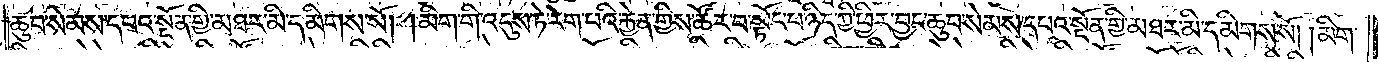ཆུབ་སེམས་དཔའ་སྔོན་གྱི་མཐར་མི་དམིགས་སོ། །མིག་གི་འདུས་ཏེ་རེག་པའི་རྐྱེན་གྱིས་ཚོར་བ་སྟོང་པ་ཉིད་ཀྱི་ཕྱིར་བྱང་ཆུབ་སེམས་དཔའ་སྔོན་གྱི་མཐར་མི་དམིགས་སོ། མིག་
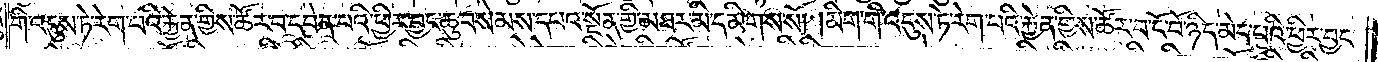གི་འདུས་ཏེ་རེག་པའི་རྐྱེན་གྱིས་ཚོར་བ་དབེན་པའི་ཕྱིར་བྱང་ཆུབ་སེམས་དཔའ་སྔོན་གྱི་མཐར་མི་དམིགས་སོ། །མིག་གི་འདུས་ཏེ་རེག་པའི་རྐྱེན་གྱིས་ཚོར་བ་ངོ་བོ་ཉིད་མེད་པའི་ཕྱིར་བྱང་
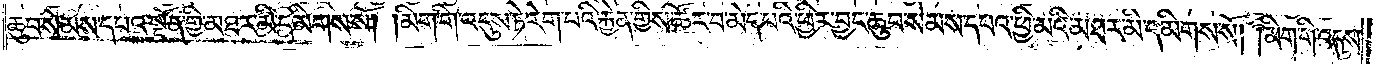ཆུབ་སེམས་དཔའ་སྔོན་གྱི་མཐར་མི་དམིགས་སོ། །མིག་གི་འདུས་ཏེ་རེག་པའི་རྐྱེན་གྱིས་ཚོར་བ་མེད་པའི་ཕྱིར་བྱང་ཆུབ་སེམས་དཔའ་ཕྱི་མའི་མཐར་མི་དམིགས་སོ། །མིག་གི་འདུས་
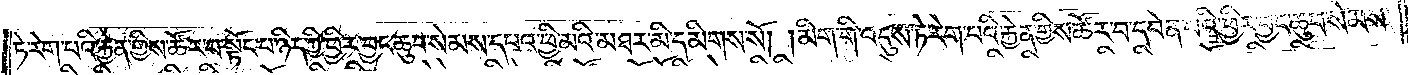ཏེ་རེག་པའི་རྐྱེན་གྱིས་ཚོར་བ་སྟོང་པ་ཉིད་ཀྱི་ཕྱིར་བྱང་ཆུབ་སེམས་དཔའ་ཕྱི་མའི་མཐར་མི་དམིགས་སོ། །མིག་གི་འདུས་ཏེ་རེག་པའི་རྐྱེན་གྱིས་ཚོར་བ་དབེན་པའི་ཕྱིར་བྱང་ཆུབ་སེམས་
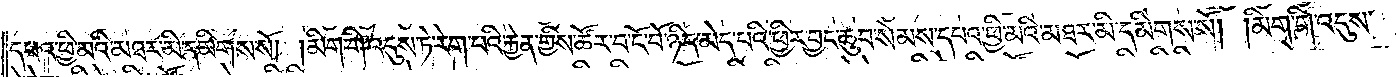དཔའ་ཕྱི་མའི་མཐར་མི་དམིགས་སོ། །མིག་གི་འདུས་ཏེ་རེག་པའི་རྐྱེན་གྱིས་ཚོར་བ་ངོ་བོ་ཉིད་མེད་པའི་ཕྱིར་བྱང་ཆུབ་སེམས་དཔའ་ཕྱི་མའི་མཐར་མི་དམིགས་སོ། །མིག་གི་འདུས་
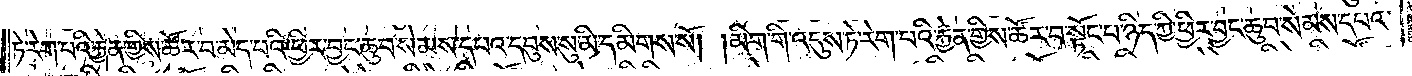ཏེ་རེག་པའི་རྐྱེན་གྱིས་ཚོར་བ་མེད་པའི་ཕྱིར་བྱང་ཆུབ་སེམས་དཔའ་དབུས་སུ་མི་དམིགས་སོ། །མིག་གི་འདུས་ཏེ་རེག་པའི་རྐྱེན་གྱིས་ཚོར་བ་སྟོང་པ་ཉིད་ཀྱི་ཕྱིར་བྱང་ཆུབ་སེམས་དཔའ་
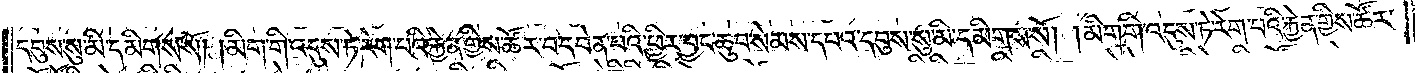དབུས་སུ་མི་དམིགས་སོ། །མིག་གི་འདུས་ཏེ་རེག་པའི་རྐྱེན་གྱིས་ཚོར་བ་དབེན་པའི་ཕྱིར་བྱང་ཆུབ་སེམས་དཔའ་དབུས་སུ་མི་དམིགས་སོ། །མིག་གི་འདུས་ཏེ་རེག་པའི་རྐྱེན་གྱིས་ཚོར་
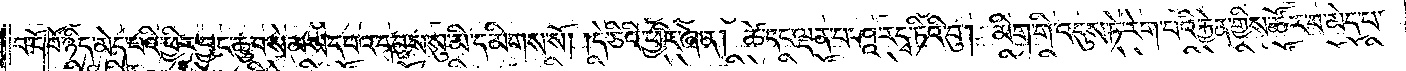བ་ངོ་བོ་ཉིད་མེད་པའི་ཕྱིར་བྱང་ཆུབ་སེམས་དཔའ་དབུས་སུ་མི་དམིགས་སོ། །དེ་ཅིའི་ཕྱིར་ཞེ་ན། ཚེ་དང་ལྡན་པ་ཤཱ་རདྭ་ཏིའི་བུ། མིག་གི་འདུས་ཏེ་རེག་པའི་རྐྱེན་གྱིས་ཚོར་བ་མེད་པ་
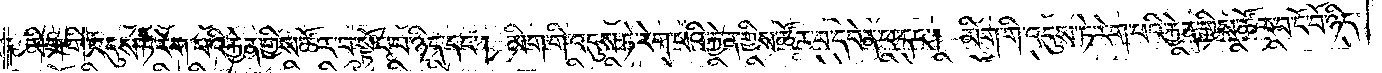དང་༑ མིག་གི་འདུས་ཏེ་རེག་པའི་རྐྱེན་གྱིས་ཚོར་བ་སྟོང་པ་ཉིད་དང༌། མིག་གི་འདུས་ཏེ་རེག་པའི་རྐྱེན་གྱིས་ཚོར་བ་དབེན་པ་དང༌། མིག་གི་འདུས་ཏེ་རེག་པའི་རྐྱེན་གྱིས་ཚོར་བ་ངོ་བོ་ཉིད་
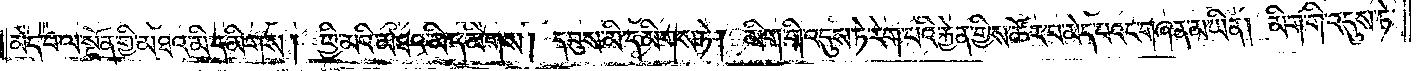མེད་པ་ལ་སྔོན་གྱི་མཐའ་མི་དམིགས། ཕྱི་མའི་མཐའ་མི་དམིགས། དབུས་མི་དམིགས་ཏེ། མིག་གི་འདུས་ཏེ་རེག་པའི་རྐྱེན་གྱིས་ཚོར་བ་མེད་པའང་གཞན་མ་ཡིན། མིག་གི་འདུས་ཏེ་
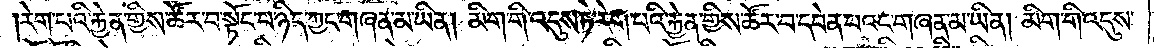རེག་པའི་རྐྱེན་གྱིས་ཚོར་བ་སྟོང་པ་ཉིད་ཀྱང་གཞན་མ་ཡིན། མིག་གི་འདུས་ཏེ་རེག་པའི་རྐྱེན་གྱིས་ཚོར་བ་དབེན་པའང་གཞན་མ་ཡིན། མིག་གི་འདུས་
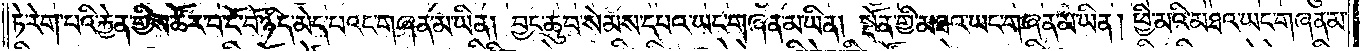ཏེ་རེག་པའི་རྐྱེན་གྱིས་ཚོར་བ་ངོ་བོ་ཉིད་མེད་པའང་གཞན་མ་ཡིན། བྱང་ཆུབ་སེམས་དཔའ་ཡང་གཞན་མ་ཡིན། སྔོན་གྱི་མཐའ་ཡང་གཞན་མ་ཡིན། ཕྱི་མའི་མཐའ་ཡང་གཞན་མ་
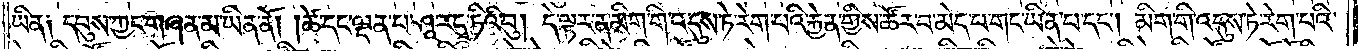ཡིན། དབུས་ཀྱང་གཞན་མ་ཡིན་ནོ། །ཚེ་དང་ལྡན་པ་ཤཱ་རདྭ་ཏིའི་བུ། དེ་ལྟར་ན་མིག་གི་འདུས་ཏེ་རེག་པའི་རྐྱེན་གྱིས་ཚོར་བ་མེད་པ་གང་ཡིན་པ་དང༌། མིག་གི་འདུས་ཏེ་རེག་པའི་
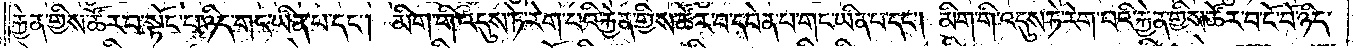རྐྱེན་གྱིས་ཚོར་བ་སྟོང་པ་ཉིད་གང་ཡིན་པ་དང༌། མིག་གི་འདུས་ཏེ་རེག་པའི་རྐྱེན་གྱིས་ཚོར་བ་དབེན་པ་གང་ཡིན་པ་དང༌། མིག་གི་འདུས་ཏེ་རེག་པའི་རྐྱེན་གྱིས་ཚོར་བ་ངོ་བོ་ཉིད་
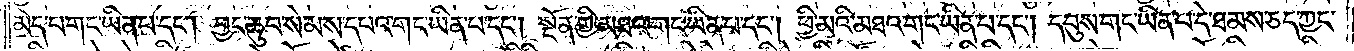མེད་པ་གང་ཡིན་པ་དང༌། བྱང་ཆུབ་སེམས་དཔའ་གང་ཡིན་པ་དང༌། སྔོན་གྱི་མཐའ་གང་ཡིན་པ་དང༌། ཕྱི་མའི་མཐའ་གང་ཡིན་པ་དང༌། དབུས་གང་ཡིན་པ་དེ་ཐམས་ཅད་ཀྱང་
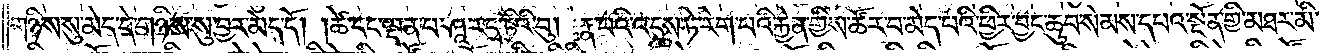གཉིས་སུ་མེད་དེ་གཉིས་སུ་བྱར་མེད་དོ། །ཚེ་དང་ལྡན་པ་ཤཱ་རདྭ་ཏིའི་བུ། རྣ་བའི་འདུས་ཏེ་རེག་པའི་རྐྱེན་གྱིས་ཚོར་བ་མེད་པའི་ཕྱིར་བྱང་ཆུབ་སེམས་དཔའ་སྔོན་གྱི་མཐར་མི་
